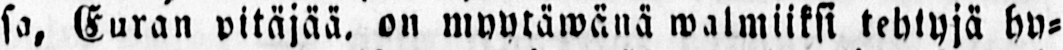sa, Euran pitäjää, on myytäwänä walmiiksi tehtyjä hy-
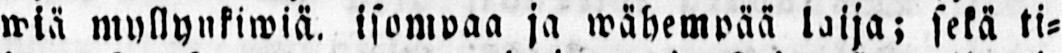wiä myllynkiwiä, isompaa ja wähempää laija; sekä ti-
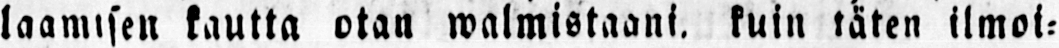laamisen kautta otan walmistaani, kuin täten ilmoi-
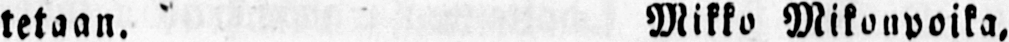tetaan. Mikko Mikonpoika,
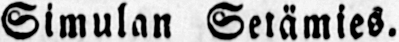Simulan Setämies.
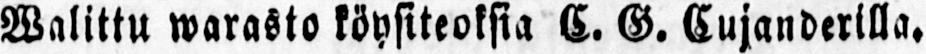Walittu warasto köysiteoksia C. G. Cujanderilla.
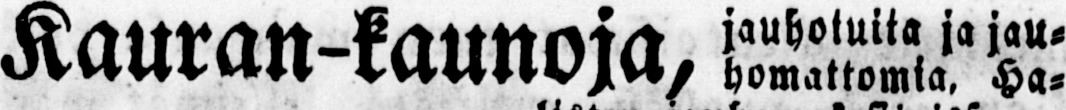Kauran-kaunoja, jauhotuita ja jau-
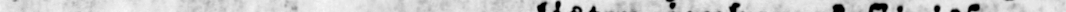homattomia, Ha-
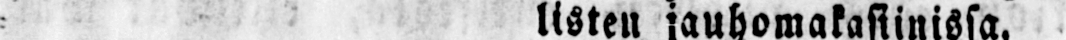listen jauhomakasiinissa.
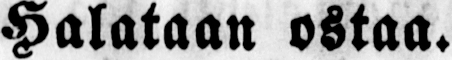Halataan ostaa.
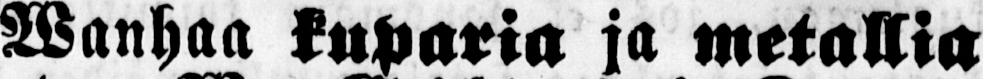Wanhaa kuparia ja metallia
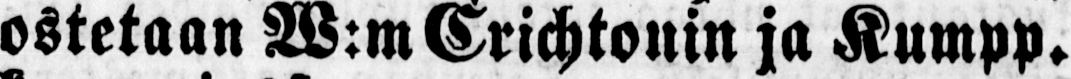ostetaan W:m Crichtonin ja Kumpp.
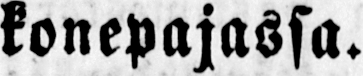konepajassa.
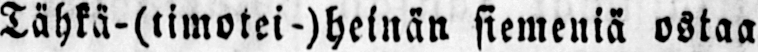Tähkä-(timotei-)heinän siemeniä ostaa
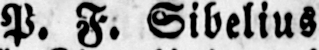P. F. Sibelius
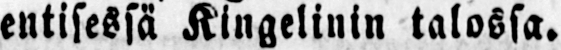entisessä Kingelinin talossa.
